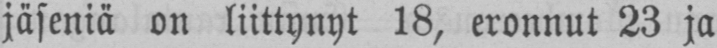jäseniä on liittynyt 18, eronnut 23 ja
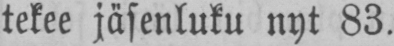tekee jäsenluku nyt 83.
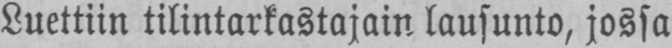Luettiin tilintarkastajain lausunto, jossa
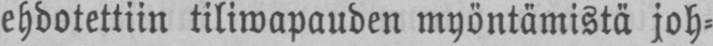ehdotettiin tiliwapauden myöntämistä joh-
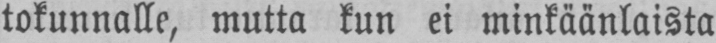tokunnalle, mutta kun ei minkäänlaista
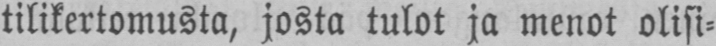tilikertomusta, josta tulot ja menot olisi-
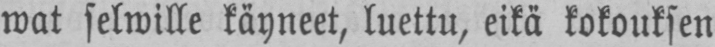wat selwille käyneet, luettu, eikä kokouksen
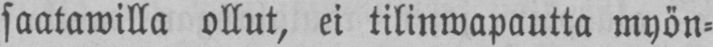saatawilla ollut, ei tilinwapautta myön-
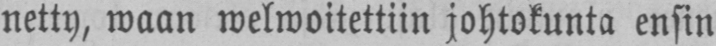netty, waan welwoitettiin johtokunta ensin
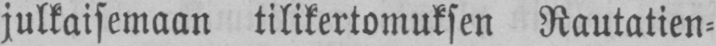julkaisemaan tilikertomuksen Rautatien-
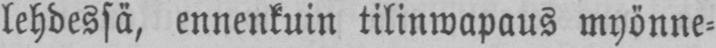lehdessä, ennenkuin tilinwapaus myönne-
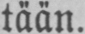tään.
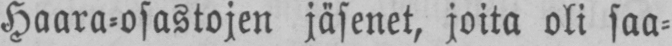Haara-osastojen jäsenet, joita oli saa-
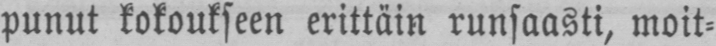punut kokoukseen erittäin runsaasti, moit-
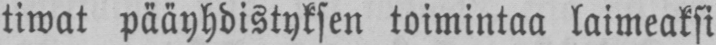tiwat pääyhdistyksen toimintaa laimeaksi
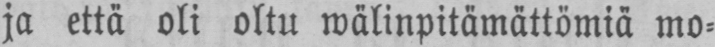ja että oli oltu wälinpitämättömiä mo-
